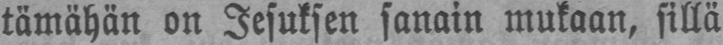tämähän on Jesuksen sanain mukaan, sillä
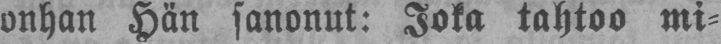onhan Hän sanonut: Joka tahtoo mi-
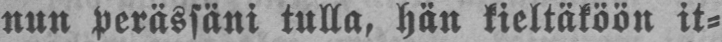nun perässäni tulla, hän kieltäköön it-
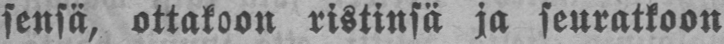sensä, ottakoon ristinsä ja seuratkoon
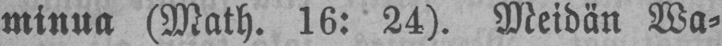minua (Math. 16: 24). Meidän Wa-
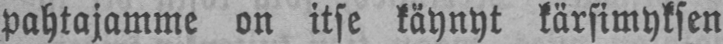pahtajamme on itse käynyt kärsimyksen
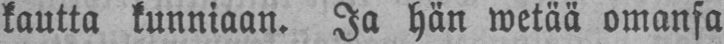kautta kunniaan. Ja hän wetää omansa
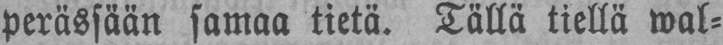perässään samaa tietä. Tällä tiellä wal-
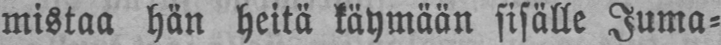mistaa hän heitä käymään sisälle Juma-
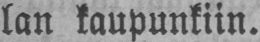lan kaupunkiin.
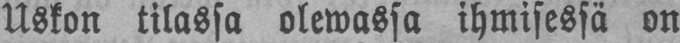Uskon tilassa olemassa ihmisessä on
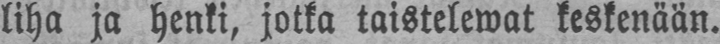liha ja henki, jotka taistelemat keskenään.
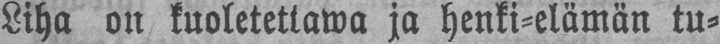Liha on kuoletettava ja henki-elämän tu-
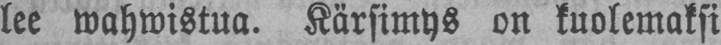lee wahwistua. Kärsimys on kuolemaksi
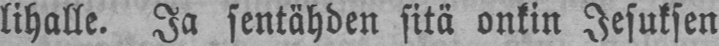lihalle. Ja sentähden sitä onkin Jesuksen
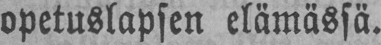opetuslapsen elämässä.
